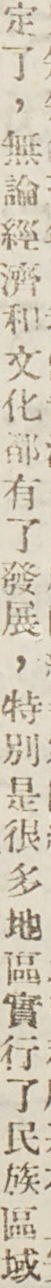定了，無論經濟和文化都有了發展，特別是很多地區實行了民族區域
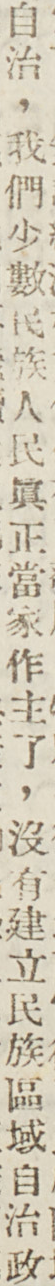自治，我們少數民族人民真正當家作主了，沒有建立民族區域自治政
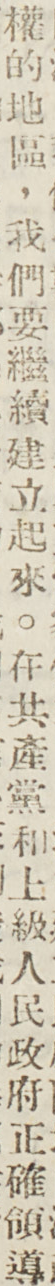權的地區，我們要繼續建立起來。在共產黨和上級人民政府正確領導
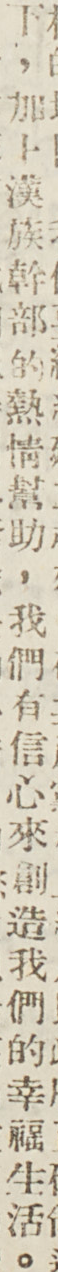下，加上漢族幹部的熱情幫助，我們有信心來創造我們的幸福生活。
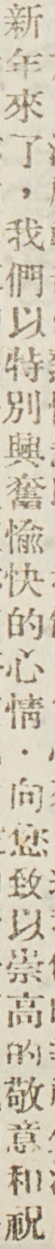新年來了，我們以特別興奮愉快的心情，向您致以崇高的敬意和祝
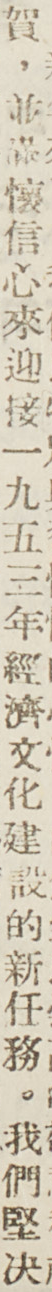賀，並滿懷信心來迎接一九五三年經濟文化建設的新任務。我們堅決
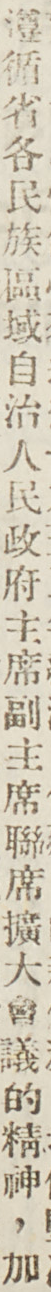遵循省各民族區域自治人民政府主席副主席聯席擴大會議的精神，加
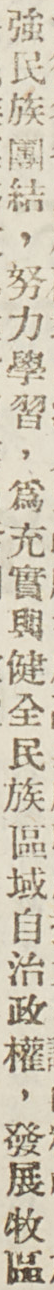強民族團結，努力學習，爲充實與健全民族區域自治政權，發展牧區
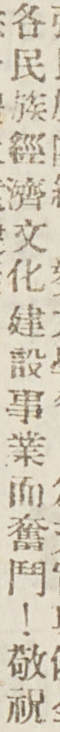各民族經濟文化建設事業而奮鬥！敬祝
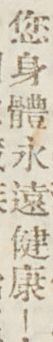您身體永遠健康！
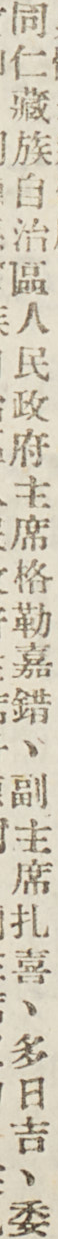同仁藏族自治區人民政府主席格勒嘉錯、副主席扎喜、多日吉、委
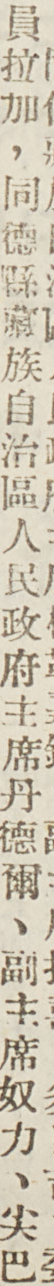員拉加，同德縣藏族自治區人民政府主席丹德爾、副主席奴力、尖巴
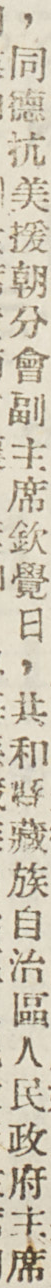，同德抗美援朝分會副主席欽覺日，共和縣藏族自治區人民政府主席
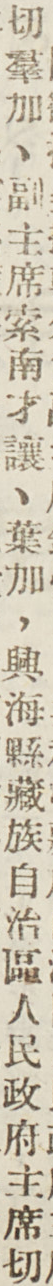切羣加、副主席索南才讓、葉加，興海縣藏族自治區人民政府主席切
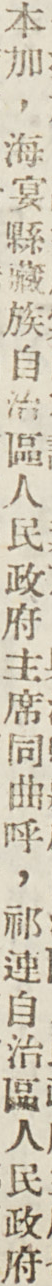本加，海晏縣藏族自治區人民政府主席同曲呼，祁連自治區人民政府
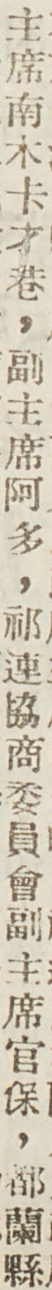主席南木卡才巷，副主席阿多，祁連協同委員會副主席官保，都蘭縣
